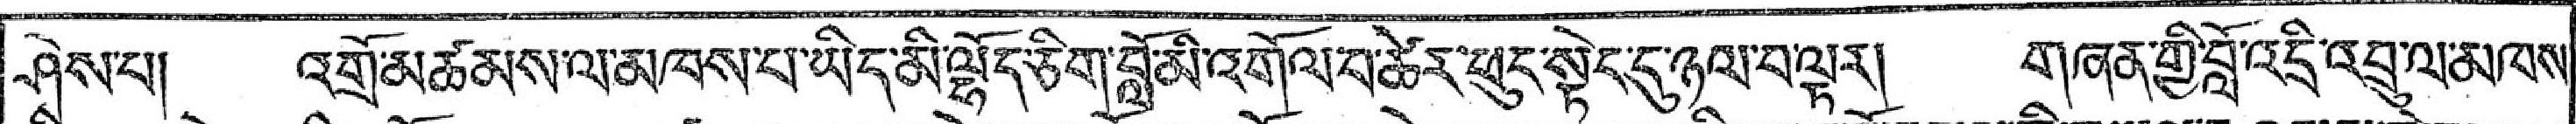ཤེས་པ། འགྲོ་མཚམས་ལ་མཁས་པ་ཡིད་མི་ལྷོད་ཅིག་བློ་མི་འགོལ་བཚེར་ཕུད་སྟེང་དུ་ཉལ་བ་ལྟར། གཞན་གྱི་བློ་འདྲི་འབྲུ་ལ་མཁས་
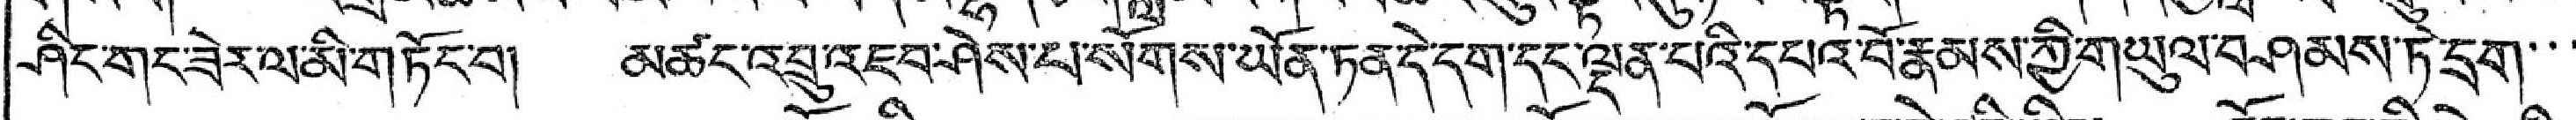ཤིང་གང་ཟེར་ལ་མི་གཏོར་བ། མཚང་འབྲུ་འཇབ་ཤེས་པ་སོགས་ཡོན་ཏན་དེ་དག་དང་ལྡན་པའི་དཔའ་བོ་རྣམས་ཀྱི་གཡུལ་བཤམས་ཏེ་དྲག་་་
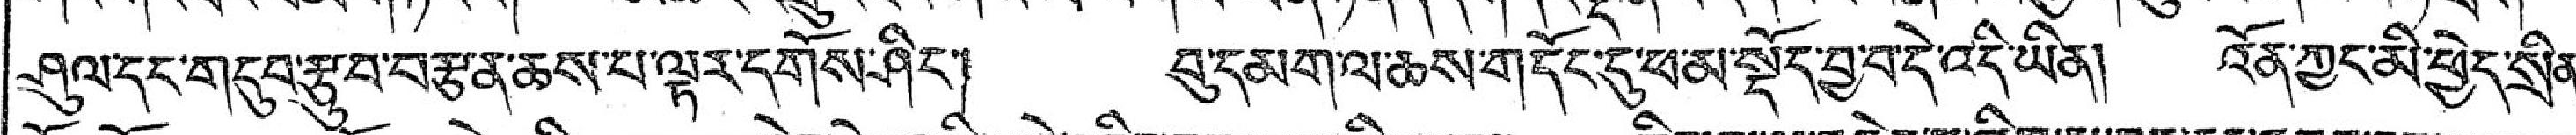ཤུལ་དང་གདུབ་རྩུབ་བརྩན་ཆས་པ་ལྟར་དགོས་ཤིང་། བུ་དམག་ལ་ཆས་གདོང་དུ་ཕ་མ་སྡོད་བྱ་བ་དེ་འདི་ཡིན། འོན་ཀྱང་མི་ཕྱེད་སྲིན་
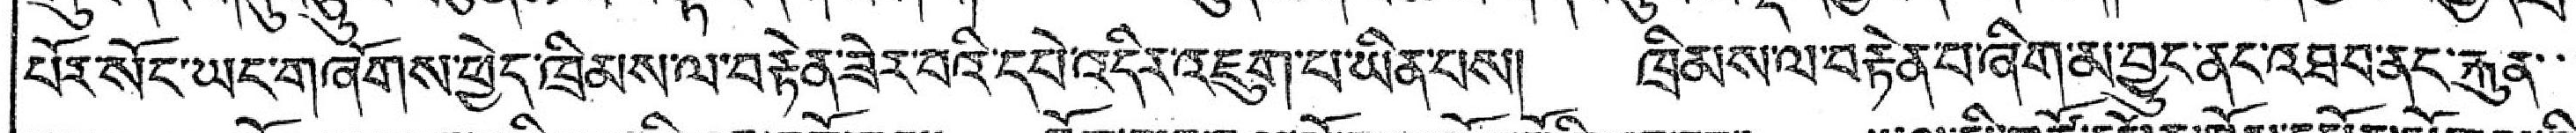པོར་སོང་ཡང་གཞོགས་ཕྱེད་ཁྲིམས་ལ་བརྟེན་ཟེར་བའི་དཔེ་འདིར་འཇུག་པ་ཡིན་པས། ཁྲིམས་ལ་བརྟེན་པ་ཞིག་མ་བྱུང་ནང་འཐབ་ནང་རྐུན་་་
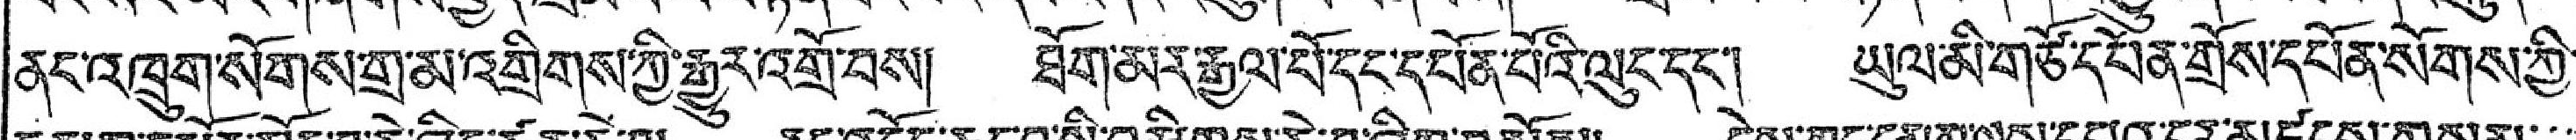ནང་འཁྲུག་སོགས་གྲ་མ་འགྲིགས་ཀྱི་རྒྱུར་འགྲོ་བས། ཐོག་མར་རྒྱལ་པོ་དང་དཔོན་པོའི་ལུང་དང་། ཡུལ་མི་གཙོ་དཔོན་གྲོས་དཔོན་སོགས་ཀྱི་
